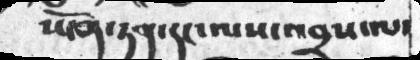ཡོན་ཏན་དང་ལས་འབྲས་ལ་
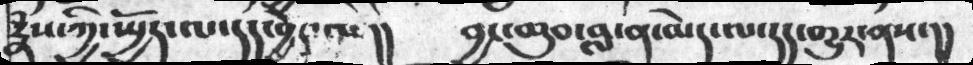རྣཾས་ཀྱི་སྤྱོད་ལ་དད་བྱེད་ལ།།   བྱང་ཆུབ་བླ་ན་མེད་ལ་དད་གྱུར་ནས་།།
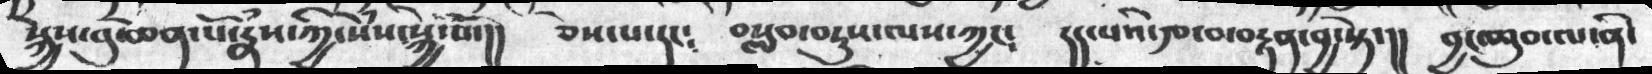སྐྱེས་བུ་ཆེན་པོ་རྣཾས་ཀྱི་སེཾས་སྐྱེ་སོ་།།   ཅེས་པ་དང༴  བསླབ་བཏུས་ལས་ཀྱང༴  དད་པའི་རྩ་བ་བརྟན་བྱ་སྟེ་།།   བྱང་ཆུབ་ལ་ནི་
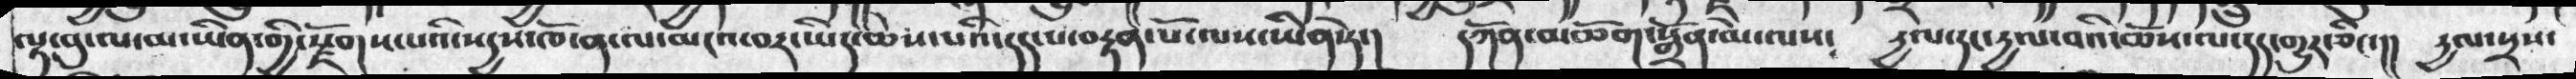ལྟ་བུ་ལ་མ་ཡིན་གྱི་རྫོགས་པའི་སདྱས་ཁོ་ན་ལ་མངའ་བར་ཡིད་ཆེས་པའི་དད་པ་བརྟན་པོ་ལ་ཡིན་ཏེ་།  དཀོན་མཆོག་སྒྲོན་མེ་ལས༴  དྱལ་དང་དྱལ་བའི་ཆོས་ལ་དད་གྱུར་ཅིང་།།  དྱལ་སྲས་
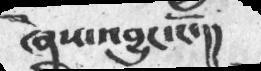ཞེས་འབྱུང་ངོ་།།
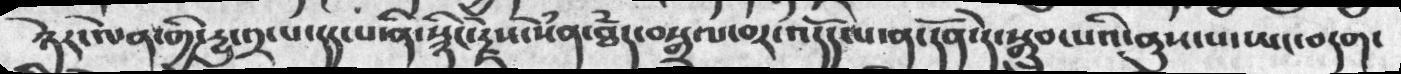ཉེར་ལེན་གྱི་རྒྱུ་༢་པ་དད་པ་ནི་སྙིང་རྗེས་སེནྃ་ཐྃད་བསྒྲལ་བར་འདོད་པ་ན་དོན་དེ་སྒྲུབ་པའི་ནུས་པ་ཡང་བདག་
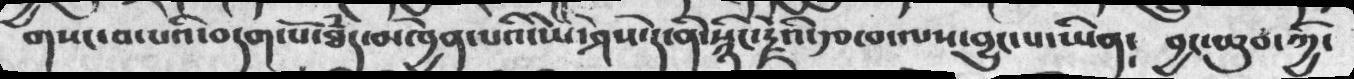གསང་བ་པའི་བདག་པོ་ཐཾད་མཁྱེན་པའི་ཡེ་ཤེས་དེ་ནི་སྙིང་རྗེའི་རྩ་བ་ལས་བྱུང་པ་ཡིན༴   བྱང་ཆུབ་ཀྱི་
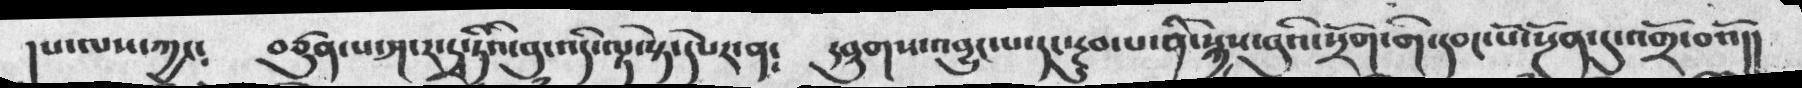།པ་ལས་ཀྱང༴  བཙུན་པ་ཤ་ར་དྭ་ཏའི་བུ་འདི་ལྟ་སྟེ་དཔེར་ན༴   དབུག་འབྱུང་པ་དང་རྔུབ་པ་ནི་སྐྱེས་བུའི་སྲོག་གི་དབང་པོ་སྔོན་དུ་འགྲོ་བའོ།།
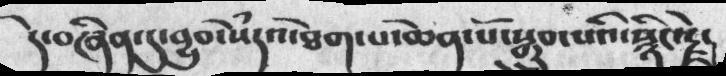དེ་བཞིན་དུ་བྱུབ་སེཾདའ་ཐེག་པ་ཆེན་པོ་སྒྲུབ་པའི་སྙིང་རྗེ་
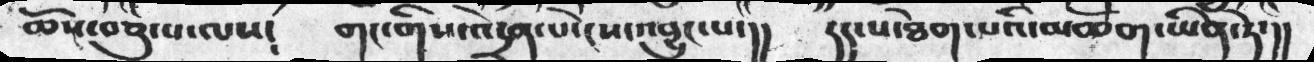ཆོས་བཅུ་པ་ལས༴  གང་གིས་འདྲེན་པ་ངེས་འབྱུང་པ་།།  དད་པ་ཐེག་པའི་མཆོག་ཡིན་ཏེ་།།
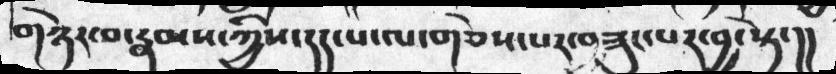གཉེར་བ་རྣམས་ཀྱིས་དད་པ་ལ་གཅེས་པར་བཟུང་པར་བྱ་སྟེ་།།
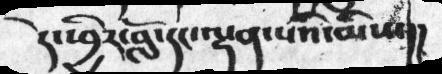དེ་ཕྱིར་བློ་དང་ལྡན་པའི་མིས་།།
